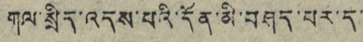གལ་སྲིད་འདས་པའི་དོན་མི་བཤད་པར་ད་
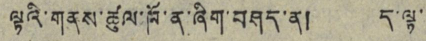ལྟའི་གནས་ཚུལ་ཁོ་ན་ཞིག་བཤད་ན། ད་ལྟ་
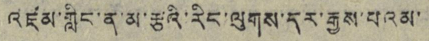འཛམ་གླིང་ན་མ་རྩའི་རིང་ལུགས་དར་རྒྱས་པའམ་
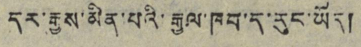དར་རྒྱས་མིན་པའི་རྒྱལ་ཁབ་ད་རུང་ཡོད།
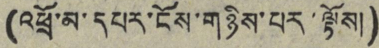(འཕྲོ་མ་དཔར་ངོས་གཉིས་པར་ལྟོས།)
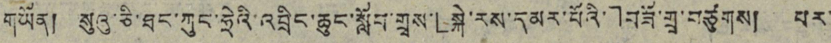གཡོན། སུའུ་ཅི་ཐང་ཀུང་ཧྲེའི་འབྲིང་ཆུང་སློབ་གྲྭས་「སྐེ་རས་དམར་པོའི་」བཟོ་གྲྭ་བཙུགས། པར་
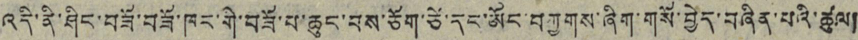འདི་ནི་ཤིང་བཟོ་བཟོ་ཁང་གི་བཟོ་པ་ཆུང་བས་ཅོག་ཙེ་དང་ཨོང་བཀྱགས་ཞིག་གསོ་བྱེད་བཞིན་པའི་ཚུལ།
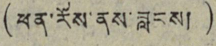(ཕན་རོས་ནས་བླངས།)
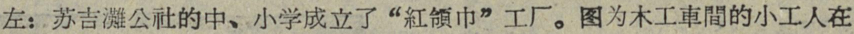左：苏吉灘公社的中、小学成立了“紅領巾”工厂。图为木工車間的小工人在
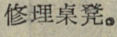修理桌凳。
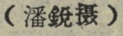（潘銳摄）
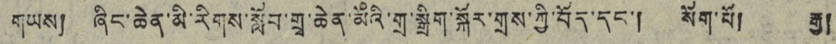གཡས། ཞིང་ཆེན་མི་རིགས་སློབ་གྲྭ་ཆེན་མོའི་གྲ་སྒྲིག་སྐོར་གྲས་ཀྱི་བོད་དང་། སོག་པོ། རྒྱ།
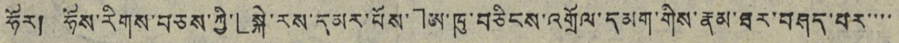ཧོར། ཧོས་རིགས་བཅས་ཀྱི་「སྐེ་རས་དམར་པོས་」ཨ་ཁུ་བཅིངས་འགྲོལ་དམག་གིས་རྣམ་ཐར་བཤད་པར་་་་
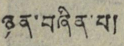ཉན་བཞིན་པ།
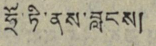ཧྲོ་ཏི་ནས་བླངས།
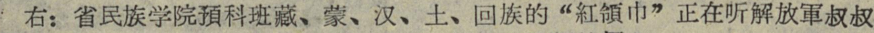右：省民族学院預科班藏、蒙、汉、土、回族的“紅領巾”正在听解放軍叔叔
